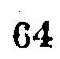64
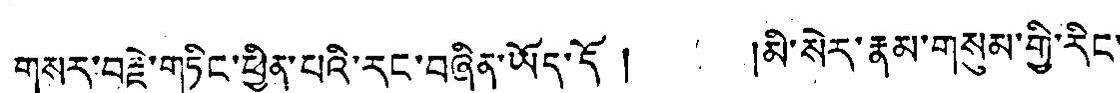གསར་བརྗེ་གཏིང་ཕྱིན་པའི་རང་བཞིན་ཡོད་དོ ། །མི་སེར་རྣམ་གསུམ་གྱི་རིང་
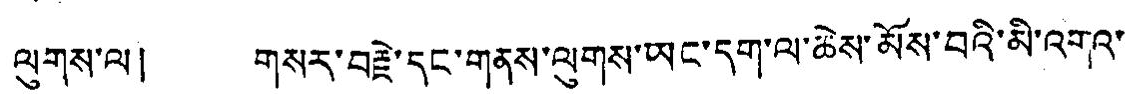ལུགས་ལ། གསར་བརྗེ་དང་གནས་ལུགས་ཡང་དག་ལ་ཆེས་མོས་བའི་མི་འགའ་
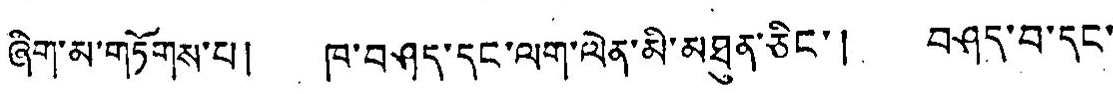ཞིག་མ་གཏོགས་པ། ཁ་བཤད་དང་ལག་ལེན་མི་མཐུན་ཅིང་། བཤད་བ་དང་
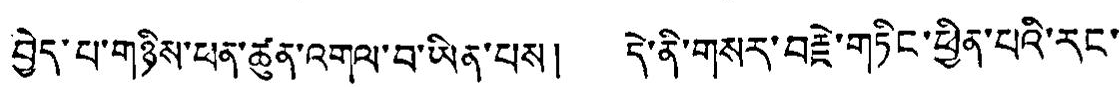བྱེད་པ་གཉིས་ཕན་ཚུན་འགལ་བ་ཡིན་པས། དེ་ནི་གསར་བརྗེ་གཏིང་ཕྱིན་པའི་རང་
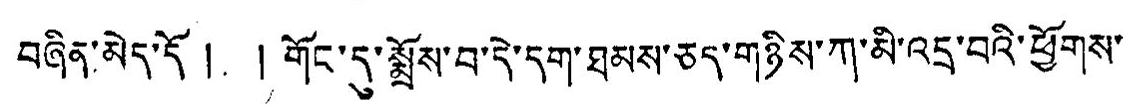བཞིན་མེད་དོ ། །གོང་དུ་སྨོས་བ་དེ་དག་ཐམས་ཅད་གཉིས་ཀ་མི་འདྲ་བའི་ཕྱོགས་
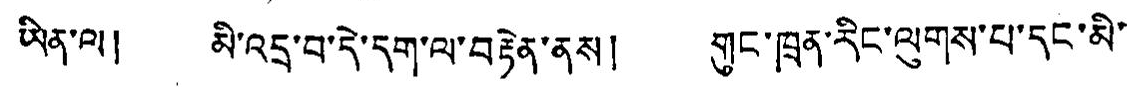ཡིན་ལ། མི་འདྲ་བ་དེ་དག་ལ་བརྟེན་ནས། གུང་ཁྲན་རིང་ལུགས་པ་དང་མི་
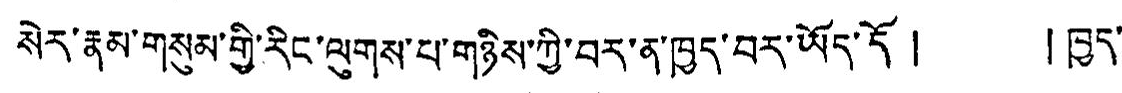སེར་རྣམ་གསུམ་གྱི་རིང་ལུགས་པ་གཉིས་ཀྱི་བར་ན་ཁྱད་བར་ཡོད་དོ། །ཁྱད་
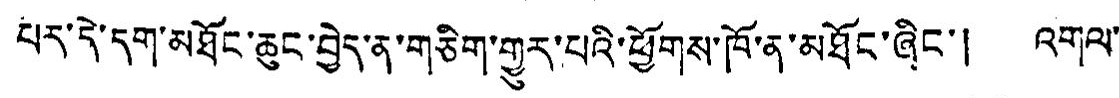པར་དེ་དག་མཐོང་ཆུང་བྱེད་ན་གཅིག་གྱུར་པའི་ཕྱོགས་ཁོ་ན་མཐོང་ཞིང་། འགུལ་
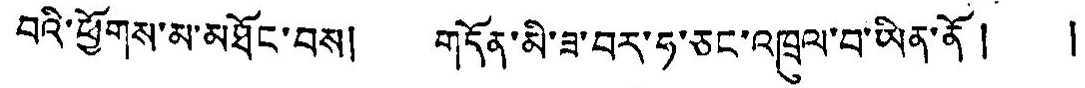བའི་ཕྱོགས་མ་མཐོང་བས། གདོན་མི་ཟ་བར་ཧ་ཅང་འཁྲུལ་བ་ཡིན་ནོ ། །
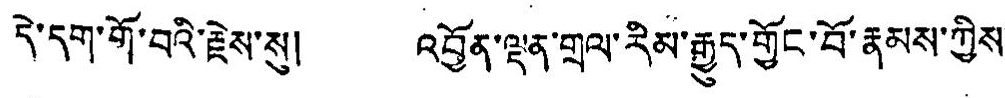དེ་དག་གོ་བའི་རྗེས་སུ། འབྱོན་ལྡན་གྲལ་རིམ་རྒྱུད་གྱོང་བོ་རྣམས་ཀྱིས་
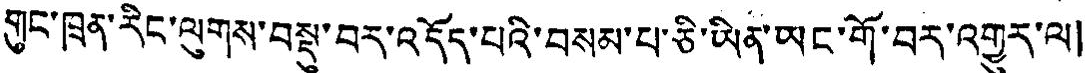གུང་ཁྲན་རིང་ལུགས་བསྡུ་བར་འདོད་པའི་བསམ་པ་ཅི་ཡིན་ཡང་གོ་བར་འགྱུར་ལ།
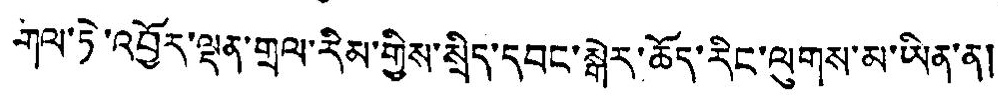གལ་ཏེ་འབྱོར་ལྡན་གྲལ་རིམ་གྱིས་སྲིད་དབང་སྒེར་ཆོད་རིང་ལུགས་མ་ཡིན་ན།
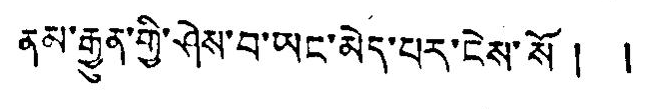ནམ་རྒྱུན་གྱི་ཤེས་བ་ཡང་མེད་པར་ངེས་སོ། །
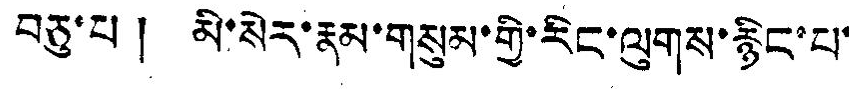བཅུ་པ། མི་སེར་རྣམ་གསུམ་གྱི་རིང་ལུགས་རྙིང་པ་
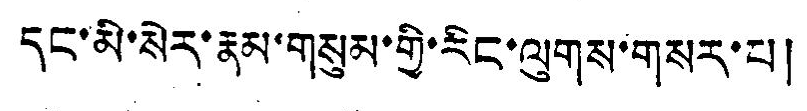དང་མི་སེར་རྣམ་གསུམ་གྱི་རིང་ལུགས་གསར་པ།
